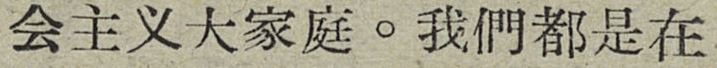会主义大家庭。我們都是在
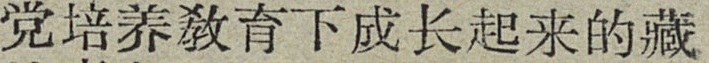党培养敎育下成长起来的藏
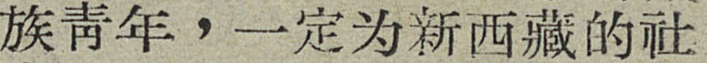族靑年，一定为新西藏的社
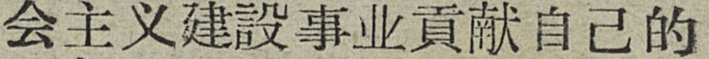会主义建設事业貢献自己的
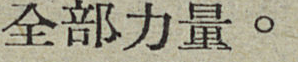全部力量。
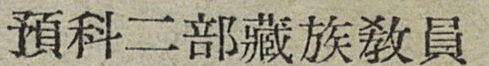預科二部藏族敎員
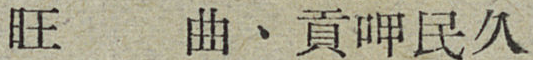旺 曲、貢呷民久
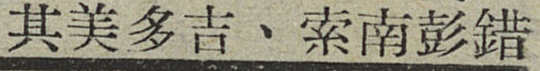其美多吉、索南彭錯
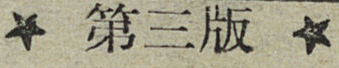★ 第三版 ★
